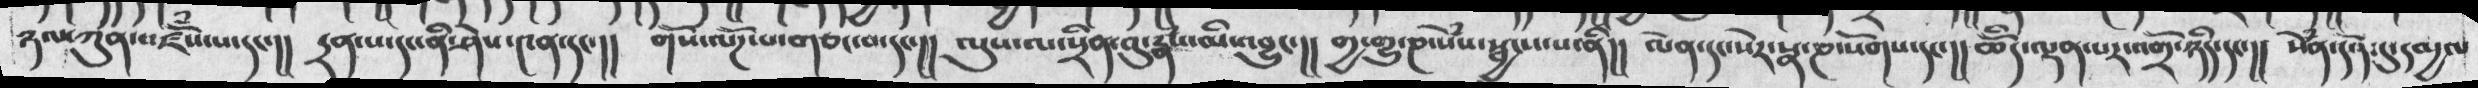ཉལ་ཀུན་བཛེས་པ་དང་།།   དྲན་པ་དང་ནི་ཤེས་༤ན་དང་།།  གསོ་ལཌོ་པ་གཅང་བ་དང་།།  ལུས་ལ་སྲིན་བུ་རྣཾས་མི་འབྱུང་།།  གྱ་གྱུ་ཎ་སེཾས་སྦྱངས་པ་ནི།།  ལེན་དང་སེར་སྣ་ཎ་སོགས་དང་།།  ཆོིད་ལྡན་པར་འགྲོ་ཉིད་དང་།།   སེཾན་དོན་དུ་དམྱལ
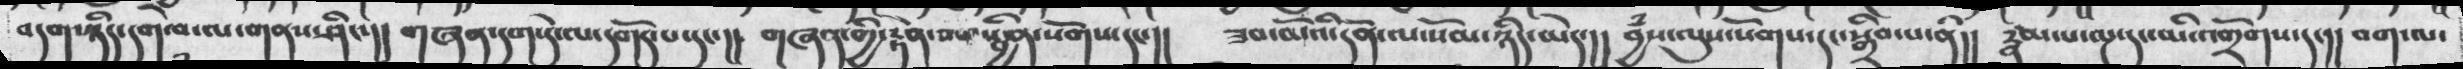བདག་ཉིད་དགེ་པ་ལ་གནས་ཤིང་།།   གཞན་དག་དེ་ལ་དགོད་པ་དང་།།   གཞན་གྱི་རྟེན་བས་སྦྱིན་སོགས་དང་།།  ཟབ་མོའི་དོན་ལ་སོམ་ཉིད་མེད་།།   བྱཾས་ལུས་སོགས་དང་སྒྲིབ་པ་ནི།།  རྣམ་པ་ལྔ་དང་མི་འགྲོགས་དང་།།   བག་ལ་
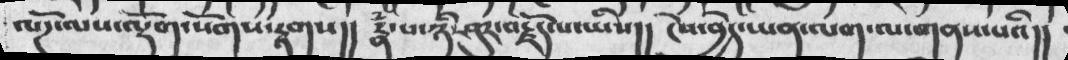ལོཌ་ལས་ལྡོག་སོགས་རྟགས།།   རྣཾ་པ་ཉི་ཤུར་བརྗོད་པ་ཡིས།།   ངེས་བྱེད་ཡན་ལག་ལ་གནས་པའི།།
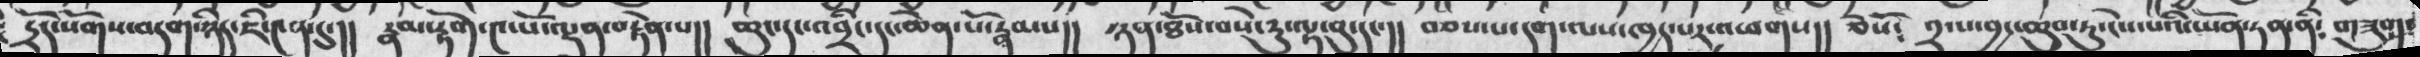དྲོད་སོགས་བདག་ཉིད་ཇི་༤ན་དུ་།།  རྣམ་རྟོག་༤་པོ་ལྡན་བརྟེན་པ།།  ཆུང་དང་འབྲིང་དང་ཆེན་པོ་རྣམས།།  ཉན་ཐོས་བསེ་རུ་ལྟ་བུ་དང་།།  བཅས་པ་དག་ལས་ཁྱད་པར་འཕགས།།  ཅེསོ༴  ༢་པ་བྱང་ཆུབ་ཏུ་ངེས་པའི་ཡོན་ཏན་ནི༴ གཟུག་
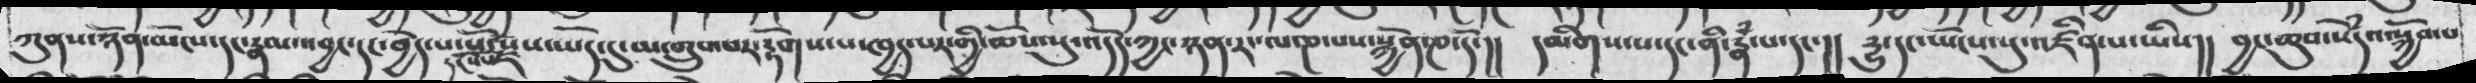ཀུནས་ཉོན་མོངས་དང་རྣམ་འབྱང་དང་བྱེད་པ་པོ་དངོས་པོ་རྫས་ཡོད་དུ་མ་གྲུབ་པར་རྟོགས་པ་ཁྱད་པར་གྱི་ཆོས་སུ་འདོད་ཀྱང་ཉན་རང་ལ་ཎ་པས་སྐྱོན་ཎ་དོ་།།   དམིགས་པ་དང་ནི་རྣཾ་པ་དང་།།  དྱུ་དང་ཡོངས་སུ་འཛིན་པ་ཡིས།།  བྱང་ཆུབ་སེཾདའ་སྐྱོབ་པ
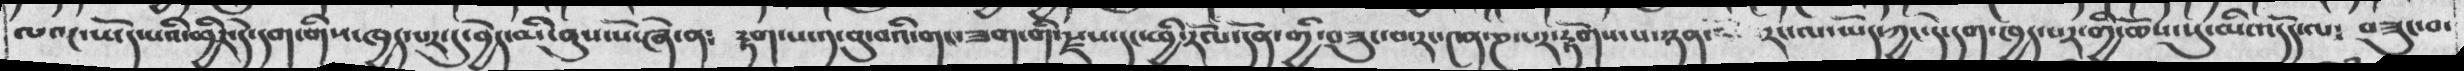ལའང་ཡོད་པའི་ཕྱིར་དེ་དག་གིས་ཁྱད་པར་དུ་བྱེད་མི་ནུས་སོ་ཞེ་ན༴  རྟག་པ་༡་བུ་བའི་གང་ཟག་གི་རྫས་དང་ཕྱི་རོལ་དོན་གྱི་བཟུང་བ་རང་༤ན་ཎ་པར་རྟོགས་པ་ཉན་  རང་ལཡོད་ཀྱང་དེ་དག་ཁྱད་པར་གྱི་ཆོས་སུ་མི་འདོད་ལ༴  བཟུང་བ་
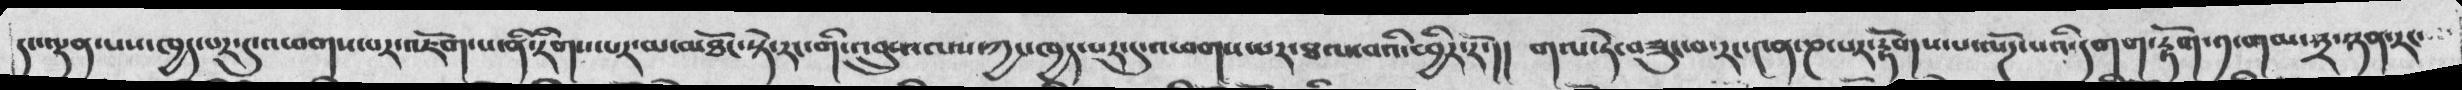དང་ལྡན་པས་ཁྱད་པར་དུ་འཕགས་པར་འཇོག་པ་ནི་རིགས་པར་མ་མཐོང་སྟེ་རང་གི་འབྲུས་ལས་ཀྱང་ཁྱད་པར་དུ་འཕགས་པར་ཐལ་བའི་ཕྱིར་རོ་།།  གལ་ཏེ་བཟུང་བ་རང་༤ན་ཎ་པར་རྟོགས་པ་ལོཌ་པའི་དགག་རྟོག་༡་གམ་༣་ཉན་རང་
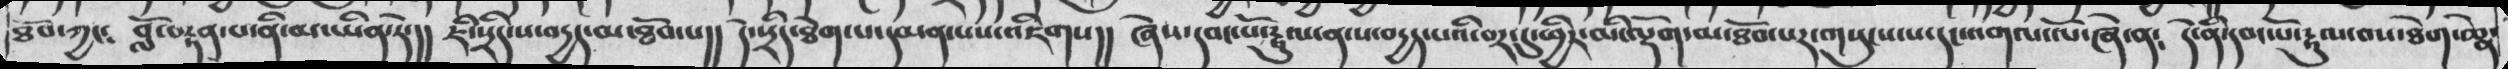ཐོབ་ཀྱང༴   བློ་བརྟན་པ་ནི་མ་ཡིན་ཏེ་།།  ཇི་སྲིད་པ་བདྱད་མ་ཐོབ་པ།།  དེ་སྲིད་ཐེག་པ་དམན་པས་འཇིགས།།   ཞེས་དབང་པོ་རྟུལ་ནས་ས་བདྱད་པའི་བར་དུ་ཕྱིར་མི་ལྡོག་མ་ཐོབ་པར་གསུངས་པ་དང་འགལ་ལོ་ཞེ་ན༴   དེ་ནི་དབང་པོ་རྟུལ་བས་ཐེག་ཆེན་
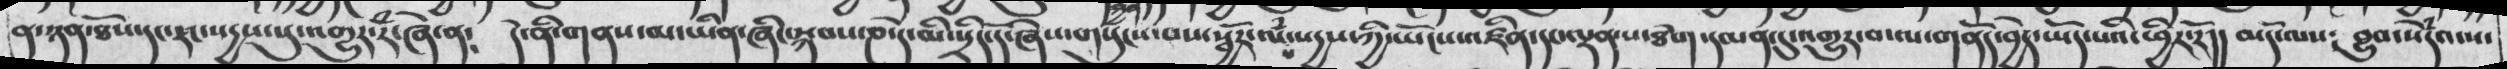ན་ཉན་ཐོས་དང་རང་སདྱས་སུ་འགྱུར་རཾ་ཞེ་ན༴  དེ་ནི་གནས་མ་ཡིན་ཞིང་སྐབས་ཎ་དེ་མི་སྲིད་དོ་ཞེས་གསུངས་པས་སྦྱོར་ལཾ་པ་སདྱས་ཀྱི་ཡོངས་འཛིན་དང་ལྡན་པ་ཐེག་དམན་དུ་འགྱུར་བ་ལ་གནོད་བྱེད་ཡོད་པའི་ཕྱིར་རོ།།  མདོ་ལས༴   བྱུབ་སེཾདའ་ས་
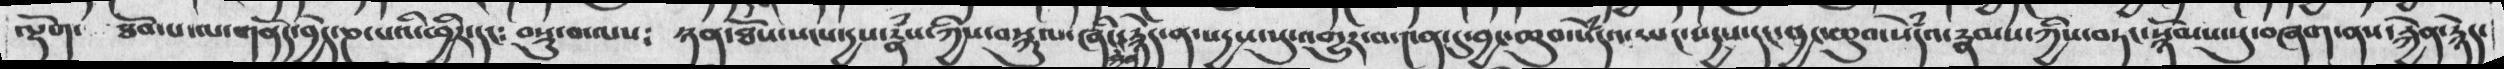ལྡོག་  ཐོབ་པ་ལ་གནོད་བྱེད་ཎ་པའི་ཕྱིར་དང༴  བསྡུ་བ་ལས༴  ཉན་ཐོས་སངས་དྱས་རྣཾས་ཀྱིས་བསྐུལ་ཞིང་རྐྱེན་རྙེད་ན་སདྱས་སུ་འགྱུར་བ་༤ན་དུ་བྱང་ཆུབ་སེཾདའ་ཡང་སདྱས་དང་བྱང་ཆུབ་སེཾདའ་རྣམས་ཀྱིས་བཏང་སྙོམས་སུ་བཞག་ནས་རྐྱེན་རྙེད་
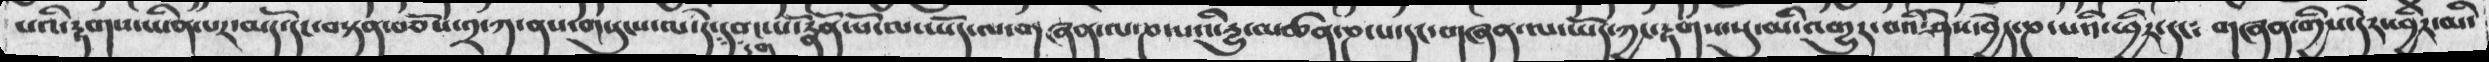པའི་རྟགས་ཡིན་མདོ་དང་བསྟན་བཅོས་༢་ཀ་ནས་གསུངས་ལ་དེ་དག་དབང་པོ་རྣོན་པོ་་ཡོད་ལ་གཞན་ལ་ཎ་པའི་དྱུ་མཚན་ཎ་པ་དང་གཞན་ལ་ཡོད་ཀྱང་རྟགས་སུ་མི་འགྱུར་བའི་ཤེས་བྱེད་ཎ་པའི་ཕྱིར་དང༴  གཞན་གྱི་དེར་ཕྱིར་མི་
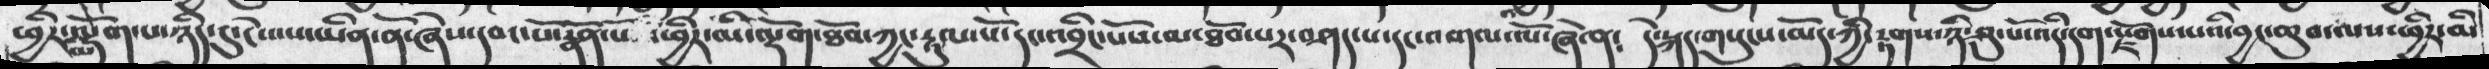ཕྱིར་མི་ལྡོག་པ་ཉིད་དུ་ངེས་པ་ཡིན་ནོ་ཞེས་དབང་པོ་རྣོན་པོ་ཕྱིར་མི་ལྡོག་ཐོབ་ཀྱང་རྟུལ་པོ་དང་འབྲིང་པོས་མ་ཐོབ་པར་བཤད་པ་དང་འགལ་ལོ་ཞེ་ན༴  དེ་སྐད་གསུངས་མོད་ཀྱི་རྟགས་ཉི་ཤུ་པོ་འདི་དག་རྫོགས་པའི་བྱང་ཆུབ་ལས་ཕྱིར་མི
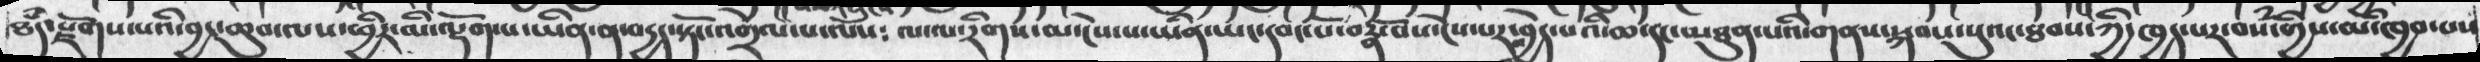ཐཾད་རྫོགས་པའི་བྱང་ཆུབ་ལས་ཕྱིར་མི་ལྡོག་པ་ཡིན་ན་བདྱད་སྟོང་འགྲེལ་པ་ལས༴  ལ་ལ་རིགས་མ་ངེས་པ་ཡིན་ཡང་དབང་པོ་བརྣོ་བས་ངེས་པར་འབྱེད་པའི་ཆ་དང་མཐུན་པའི་གནས་སྐབས་སུའང་ཐབས་ཀྱི་ཁྱད་པ་བསཾ་གྱིས་མི་ཁྱབ་པས
